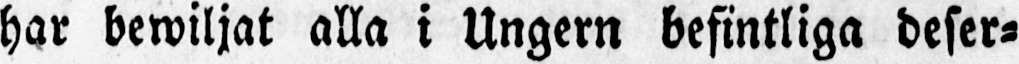har bewiljat alla i Ungern befintliga deser-
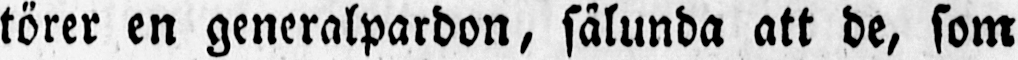törer en generalpardon, sålunda att de, som
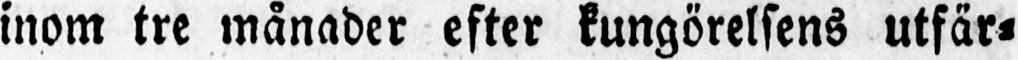inom tre månader efter kungörelsens utfär-
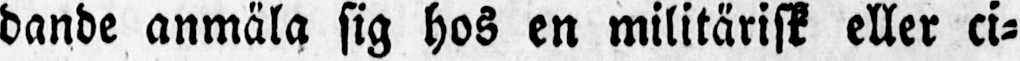dande anmäla sig hos en militärisk eller ci-
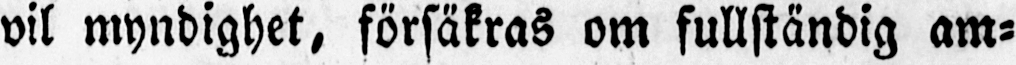vil myndighet, försäkras om fullständig am-
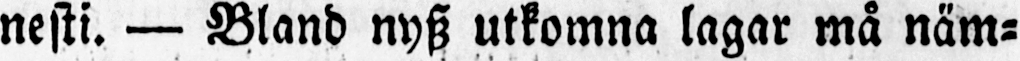nesti. — Bland nysz utkomna lagar må näm-
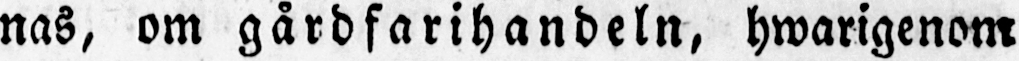nas, om gårdfarihandeln, hwarigenom
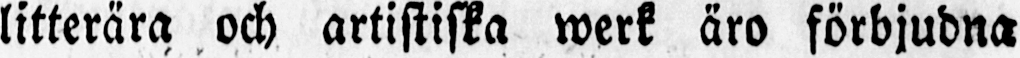litterära och artistiska werk äro förbjudna
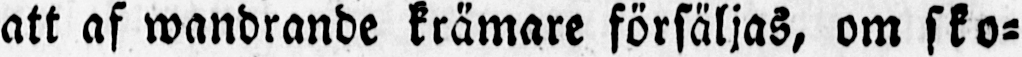att af wandrande krämare försäljas, om sko-
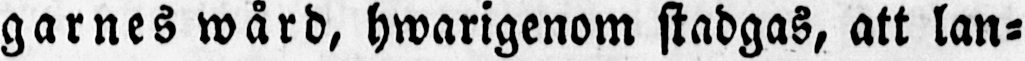garnes wård, hwarigenom stadgas, att lan-
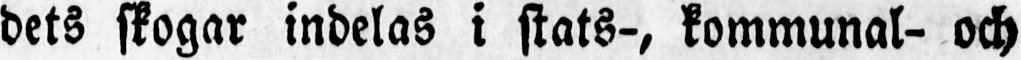dets skogar indelas i stats-, kommunal- och
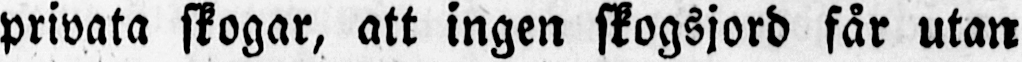privata skogar, att ingen skogsjord får utan
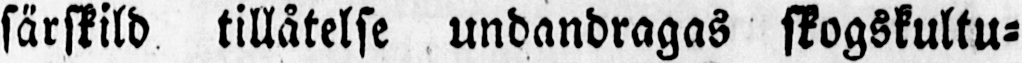särskild tillåtelse undandragas skogskultu-
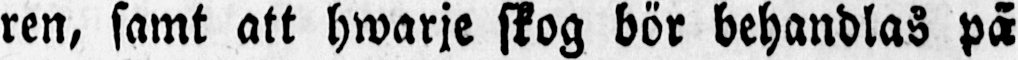ren, samt att hwarje skog bör behandlas på
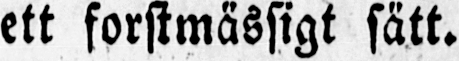ett forstmässigt sätt.
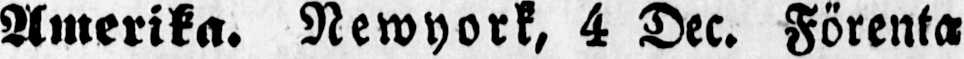Amerika. Newyork, 4 Dec. Förenta
